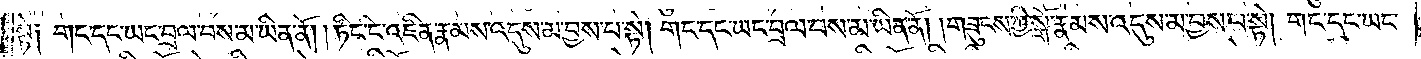པ་སྟེ། གང་དང་ཡང་བྲལ་བས་མ་ཡིན་ནོ། །ཏིང་ངེ་འཛིན་རྣམས་འདུས་མ་བྱས་པ་སྟེ། གང་དང་ཡང་བྲལ་བས་མ་ཡིན་ནོ། །གཟུངས་ཀྱི་སྒོ་རྣམས་འདུས་མ་བྱས་པ་སྟེ། གང་དང་ཡང་
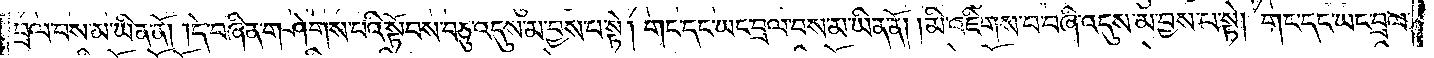བྲལ་བས་མ་ཡིན་ནོ། །དེ་བཞིན་གཤེགས་པའི་སྟོབས་བཅུ་འདུས་མ་བྱས་པ་སྟེ། གང་དང་ཡང་བྲལ་བས་མ་ཡིན་ནོ། །མི་འཇིགས་པ་བཞི་འདུས་མ་བྱས་པ་སྟེ། གང་དང་ཡང་བྲལ་
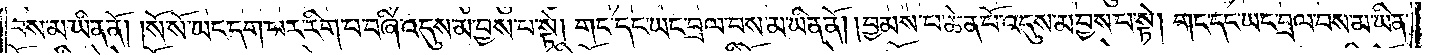བས་མ་ཡིན་ནོ། །སོ་སོ་ཡང་དག་པར་རིག་པ་བཞི་འདུས་མ་བྱས་པ་སྟེ། གང་དང་ཡང་བྲལ་བས་མ་ཡིན་ནོ། །བྱམས་པ་ཆེན་པོ་འདུས་མ་བྱས་པ་སྟེ། གང་དང་ཡང་བྲལ་བས་མ་ཡིན་
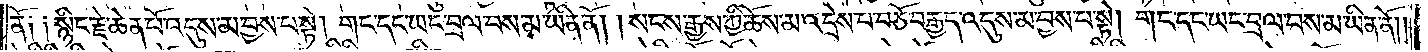ནོ༑ ༑སྙིང་རྗེ་ཆེན་པོ་འདུས་མ་བྱས་པ་སྟེ། གང་དང་ཡང་བྲལ་བས་མ་ཡིན་ནོ། །སངས་རྒྱས་ཀྱི་ཆོས་མ་འདྲེས་པ་བཅོ་བརྒྱད་འདུས་མ་བྱས་པ་སྟེ། གང་དང་ཡང་བྲལ་བས་མ་ཡིན་ནོ། །
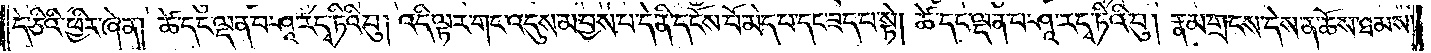དེ་ཅིའི་ཕྱིར་ཞེ་ན། ཚེ་དང་ལྡན་པ་ཤཱ་ར་དྭ་ཏིའི་བུ། འདི་ལྟར་གང་འདུས་མ་བྱས་པ་དེ་ནི་དངོས་པོ་མེད་པ་དང་ཟད་པ་སྟེ། ཚེ་དང་ལྡན་པ་ཤཱ་ར་དྭ་ཏིའི་བུ། རྣམ་གྲངས་དེས་ན་ཆོས་ཐམས་
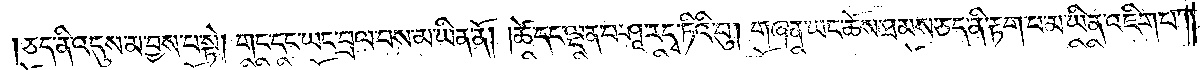ཅད་ནི་འདུས་མ་བྱས་པ་སྟེ། གང་དང་ཡང་བྲལ་བས་མ་ཡིན་ནོ། །ཚེ་དང་ལྡན་པ་ཤཱ་ར་དྭ་ཏིའི་བུ། གཞན་ཡང་ཆོས་ཐམས་ཅད་ནི་རྟག་པ་མ་ཡིན་འཇིག་པ་
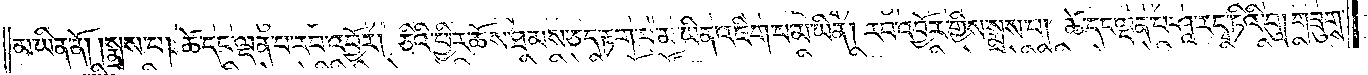མ་ཡིན་ནོ། །སྨྲས་པ། ཚེ་དང་ལྡན་པ་རབ་འབྱོར། ཅིའི་ཕྱིར་ཆོས་ཐམས་ཅད་རྟག་པ་མ་ཡིན་འཇིག་པ་མ་ཡིན། རབ་འབྱོར་གྱིས་སྨྲས་པ། ཚེ་དང་ལྡན་པ་ཤཱ་ར་དྭ་ཏིའི་བུ། གཟུགས་
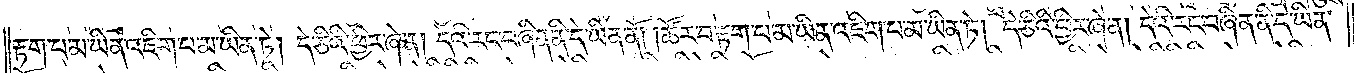རྟག་པ་མ་ཡིན་འཇིག་པ་མ་ཡིན་ཏེ། དེ་ཅིའི་ཕྱིར་ཞེ་ན། དེའི་རང་བཞིན་ནི་དེ་ཡིན་ནོ། །ཚོར་བ་རྟག་པ་མ་ཡིན་འཇིག་པ་མ་ཡིན་ཏེ། དེ་ཅིའི་ཕྱིར་ཞེ་ན། དེའི་རང་བཞིན་ནི་དེ་ཡིན་
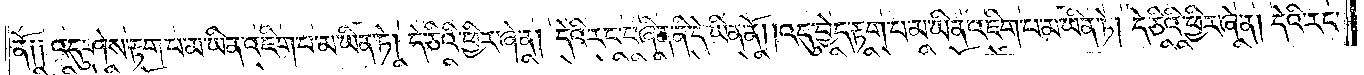ནོ། །འདུ་ཤེས་རྟག་པ་མ་ཡིན་འཇིག་པ་མ་ཡིན་ཏེ། དེ་ཅིའི་ཕྱིར་ཞེ་ན། དེའི་རང་བཞིན་ནི་དེ་ཡིན་ནོ། །འདུ་བྱེད་རྟག་པ་མ་ཡིན་འཇིག་པ་མ་ཡིན་ཏེ། དེ་ཅིའི་ཕྱིར་ཞེ་ན། དེའི་རང་
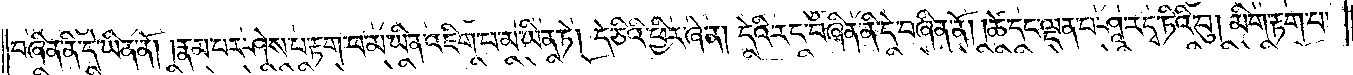བཞིན་ནི་དེ་ཡིན་ནོ། །རྣམ་པར་ཤེས་པ་རྟག་པ་མ་ཡིན་འཇིག་པ་མ་ཡིན་ཏེ། དེ་ཅིའི་ཕྱིར་ཞེ་ན། དེའི་རང་བཞིན་ནི་དེ་ཡིན་ནོ། །ཚེ་དང་ལྡན་པ་ཤཱ་ར་དྭ་ཏིའི་བུ། མིག་རྟག་པ་
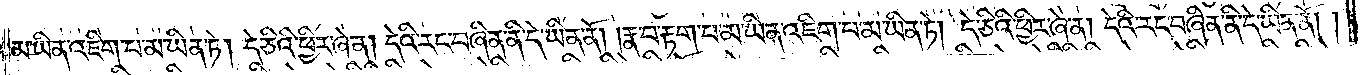མ་ཡིན་འཇིག་པ་མ་ཡིན་ཏེ། དེ་ཅིའི་ཕྱིར་ཞེ་ན། དེའི་རང་བཞིན་ནི་དེ་ཡིན་ནོ། །རྣ་བ་རྟག་པ་མ་ཡིན་འཇིག་པ་མ་ཡིན་ཏེ། དེ་ཅིའི་ཕྱིར་ཞེ་ན། དེའི་རང་བཞིན་ནི་དེ་ཡིན་ནོ། །
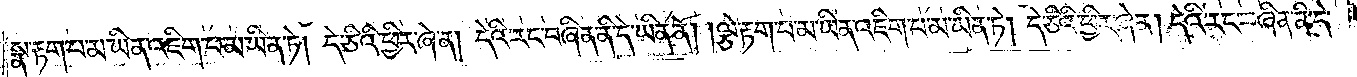སྣ་རྟག་པ་མ་ཡིན་འཇིག་པ་མ་ཡིན་ཏེ། དེ་ཅིའི་ཕྱིར་ཞེ་ན། དེའི་རང་བཞིན་ནི་དེ་ཡིན་ནོ། །ལྕེ་རྟག་པ་མ་ཡིན་འཇིག་པ་མ་ཡིན་ཏེ། དེ་ཅིའི་ཕྱིར་ཞེ་ན། དེའི་རང་བཞིན་ནི་དེ་
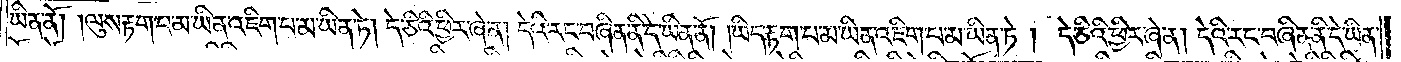ཡིན་ནོ། །ལུས་རྟག་པ་མ་ཡིན་འཇིག་པ་མ་ཡིན་ཏེ། དེ་ཅིའི་ཕྱིར་ཞེ་ན། དེའི་རང་བཞིན་ནི་དེ་ཡིན་ནོ། །ཡིད་རྟག་པ་མ་ཡིན་འཇིག་པ་མ་ཡིན་ཏེ། དེ་ཅིའི་ཕྱིར་ཞེ་ན། དེའི་རང་བཞིན་ནི་དེ་ཡིན་
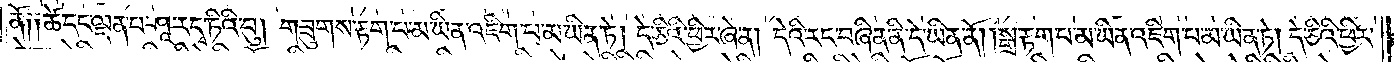ནོ༑ ༑ཚེ་དང་ལྡན་པ་ཤཱ་ར་དྭ་ཏིའི་བུ། གཟུགས་རྟག་པ་མ་ཡིན་འཇིག་པ་མ་ཡིན་ཏེ། དེ་ཅིའི་ཕྱིར་ཞེ་ན། དེའི་རང་བཞིན་ནི་དེ་ཡིན་ནོ། །སྒྲ་རྟག་པ་མ་ཡིན་འཇིག་པ་མ་ཡིན་ཏེ། དེ་ཅིའི་ཕྱིར་
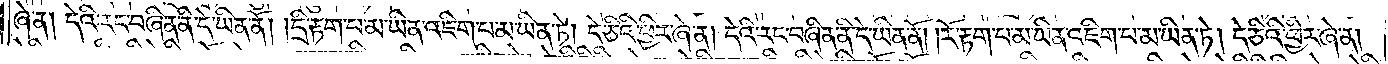ཞེ་ན། དེའི་རང་བཞིན་ནི་དེ་ཡིན་ནོ། །དྲི་རྟག་པ་མ་ཡིན་འཇིག་པ་མ་ཡིན་ཏེ། དེ་ཅིའི་ཕྱིར་ཞེ་ན། དེའི་རང་བཞིན་ནི་དེ་ཡིན་ནོ། །རོ་རྟག་པ་མ་ཡིན་འཇིག་པ་མ་ཡིན་ཏེ། དེ་ཅིའི་ཕྱིར་ཞེ་ན།
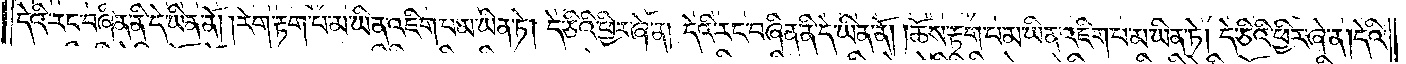དེའི་རང་བཞིན་ནི་དེ་ཡིན་ནོ། །རེག་རྟག་པ་མ་ཡིན་འཇིག་པ་མ་ཡིན་ཏེ། དེ་ཅིའི་ཕྱིར་ཞེ་ན། དེའི་རང་བཞིན་ནི་དེ་ཡིན་ནོ། །ཆོས་རྟག་པ་མ་ཡིན་འཇིག་པ་མ་ཡིན་ཏེ། དེ་ཅིའི་ཕྱིར་ཞེ་ན། དེའི་
